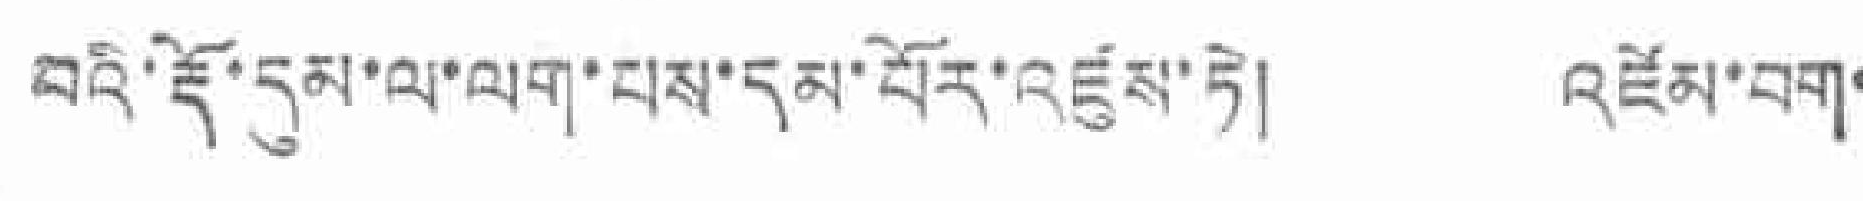བའི་རྡོ་དུམ་ལ་ལག་པས་དམ་པོར་འཛུས་ཏེ། འཛོམ་བག་
